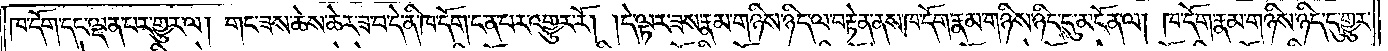ཁ་དོག་དང་ལྡན་པར་གྱུར་ལ། གང་ཟས་ཆེས་ཆེར་ཟ་བ་དེ་ནི་ཁ་དོག་ངན་པར་འགྱུར་རོ། །དེ་ལྟར་ཟས་རྣམ་གཉིས་ཉིད་ལ་བརྟེན་ནས་ཁ་དོག་རྣམ་གཉིས་ཉིད་དུ་མངོན་ལ། ཁ་དོག་རྣམ་གཉིས་ཉིད་དུ་གྱུར་
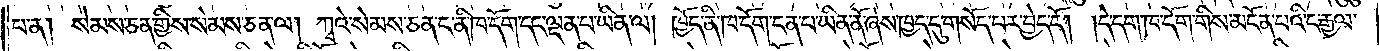པ་ན། སེམས་ཅན་གྱིས་སེམས་ཅན་ལ། ཀྭའེ་སེམས་ཅན་ང་ནི་ཁ་དོག་དང་ལྡན་པ་ཡིན་ལ། ཁྱོད་ནི་ཁ་དོག་ངན་པ་ཡིན་ནོ་ཞེས་ཁྱད་དུ་གསོད་པར་བྱེད་དོ། །དེ་དག་ཁ་དོག་གིས་མངོན་པའི་ང་རྒྱལ་
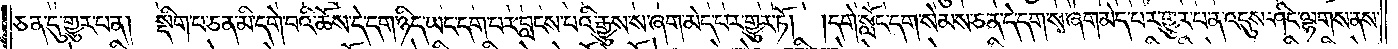ཅན་དུ་གྱུར་པ་ན། སྡིག་པ་ཅན་མི་དགེ་བའི་ཆོས་དེ་དག་ཉིད་ཡང་དག་པར་བླངས་པའི་རྒྱུས་ས་ཞག་མེད་པར་གྱུར་ཏོ། །དགེ་སློང་དག་སེམས་ཅན་དེ་དག་ས་ཞག་མེད་པར་གྱུར་པ་ན་འདུས་ཤིང་ལྷགས་ནས་
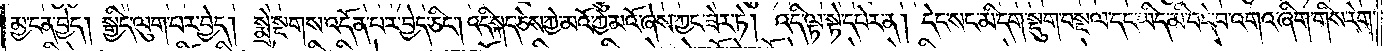མྱ་ངན་བྱེད། སྒྱིད་ལུག་པར་བྱེད། སྨྲེ་སྔགས་འདོན་པར་བྱེད་ཅིང༌། འདི་སྐད་ཅེས་ཀྱེ་མའོ་ཀྱེ་མའོ་ཞེས་ཀྱང་ཟེར་ཏེ། འདི་ལྟ་སྟེ་དཔེར་ན། དེང་སང་མི་དག་སྡུག་བསྔལ་དང་ཡིད་མི་བདེ་བ་འགའ་ཞིག་གིས་རེག་
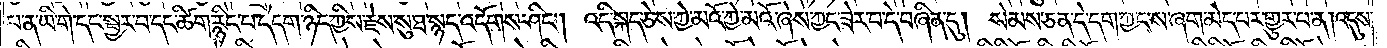པ་ན་ཡི་གེ་དང་སྦྱར་བ་དང་ཚིག་རྙིང་པ་དེ་དག་ཉིད་ཀྱིས་རྗེས་སུ་ཐ་སྙད་འདོགས་ཤིང༌། འདི་སྐད་ཅེས་ཀྱེ་མའོ་ཀྱེ་མའོ་ཞེས་ཀྱང་ཟེར་བ་དེ་བཞིན་དུ། སེམས་ཅན་དེ་དག་ཀྱང་ས་ཞག་མེད་པར་གྱུར་པ་ན། འདུས་
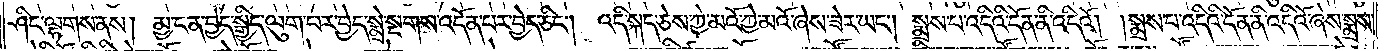ཤིང་ལྷགས་ནས། མྱ་ངན་བྱེད་སྒྱིད་ལུག་པར་བྱེད་སྨྲེ་སྔགས་འདོན་པར་བྱེད་ཅིང༌། འདི་སྐད་ཅེས་ཀྱེ་མའོ་ཀྱེ་མའོ་ཞེས་ཟེར་ཡང༌། སྨྲས་པ་འདིའི་དོན་ནི་འདིའོ། །སྨྲས་པ་འདིའི་དོན་ནི་འདིའོ་ཞེས་སྨྲས་
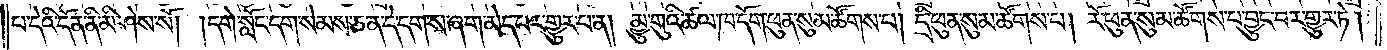པ་དེའི་དོན་ནི་མི་ཤེས་སོ། །དགེ་སློང་དག་སེམས་ཅན་དེ་དག་ས་ཞག་མེད་པར་གྱུར་པ་ན། མྱུ་གུའི་ཚལ་ཁ་དོག་ཕུན་སུམ་ཚོགས་པ། དྲི་ཕུན་སུམ་ཚོགས་པ། རོ་ཕུན་སུམ་ཚོགས་པ་བྱུང་བར་གྱུར་ཏེ།
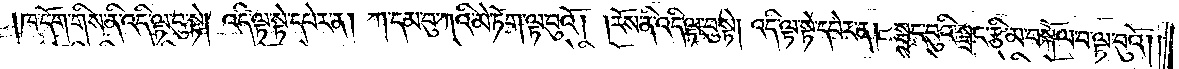།ཁ་དོག་གིས་ནི་འདི་ལྟ་བུ་སྟེ། འདི་ལྟ་སྟེ་དཔེར་ན། ཀ་དམ་བུ་ཀའི་མེ་ཏོག་ལྟ་བུའོ། །རོས་ནི་འདི་ལྟ་བུ་སྟེ། འདི་ལྟ་སྟེ་དཔེར་ན། སྦྲང་བུའི་སྦྲང་རྩི་མ་བསྐོལ་བ་ལྟ་བུའོ། །
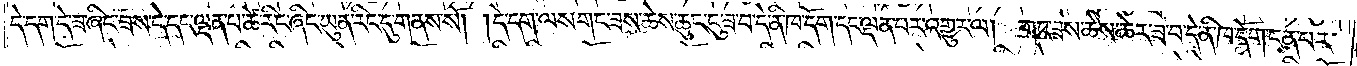དེ་དག་དེ་ཟ་ཞིང་ཟས་དེ་དང་ལྡན་པ་ཚེ་རིང་ཞིང་ཡུན་རིང་དུ་གནས་སོ། །དེ་དག་ལས་གང་ཟས་ཆེས་ཆུང་ངུ་ཟ་བ་དེ་ནི་ཁ་དོག་དང་ལྡན་པར་འགྱུར་ལ། གང་ཟས་ཆེས་ཆེར་ཟ་བ་དེ་ནི་ཁ་དོག་ངན་པར་
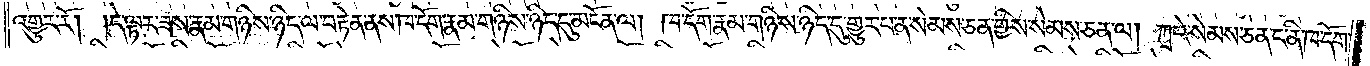འགྱུར་རོ། །དེ་ལྟར་ཟས་རྣམ་གཉིས་ཉིད་ལ་བརྟེན་ནས་ཁ་དོག་རྣམ་གཉིས་ཉིད་དུ་མངོན་ལ། ཁ་དོག་རྣམ་གཉིས་ཉིད་དུ་གྱུར་པ་ན་སེམས་ཅན་གྱིས་སེམས་ཅན་ལ། ཀྭའི་སེམས་ཅན་ང་ནི་ཁ་དོག་
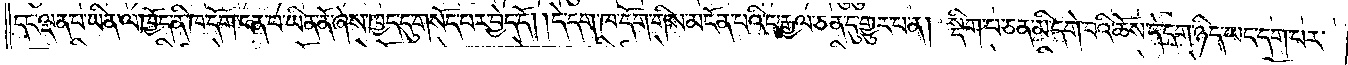དང་ལྡན་པ་ཡིན་ལ་ཁྱོད་ནི་ཁ་དོག་ངན་པ་ཡིན་ནོ་ཞེས་ཁྱད་དུ་གསོད་པར་བྱེད་དོ། །དེ་དག་ཁ་དོག་གིས་མངོན་པའི་ང་རྒྱལ་ཅན་དུ་གྱུར་པ་ན། སྡིག་པ་ཅན་མི་དགེ་བའི་ཆོས་དེ་དག་ཉིད་ཡང་དག་པར་
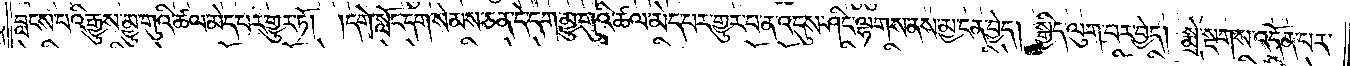བླངས་པའི་རྒྱུས་མྱུ་གུའི་ཚལ་མེད་པར་གྱུར་ཏོ། །དགེ་སློང་དག་སེམས་ཅན་དེ་དག་མྱུ་གུའི་ཚལ་མེད་པར་གྱུར་པ་ན་འདུས་ཤིང་ལྷགས་ནས་མྱ་ངན་བྱེད། སྒྱིད་ལུག་པར་བྱེད། སྨྲེ་སྔགས་འདོན་པར་
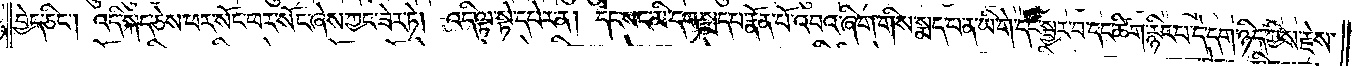བྱེད་ཅིང༌། འདི་སྐད་ཅེས་ཕར་སོང་ཕར་སོང་ཞེས་ཀྱང་ཟེར་ཏེ། འདི་ལྟ་སྟེ་དཔེར་ན། དེང་སང་མི་དག་སྨད་པ་རྣོན་པོ་འབའ་ཞིག་གིས་སྨད་པ་ན་ཡི་གེ་དང་སྦྱར་བ་དང་ཚིག་རྙིང་པ་དེ་དག་ཉིད་ཀྱིས་རྗེས་
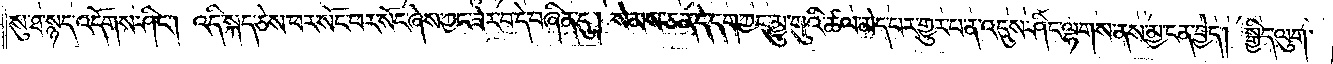སུ་ཐ་སྙད་འདོགས་ཤིང༌། འདི་སྐད་ཅེས་ཕར་སོང་ཕར་སོང་ཞེས་ཀྱང་ཟེར་བ་དེ་བཞིན་དུ། སེམས་ཅན་དེ་དག་ཀྱང་མྱུ་གུའི་ཚལ་མེད་པར་གྱུར་པ་ན་འདུས་ཤིང་ལྷགས་ནས་མྱ་ངན་བྱེད། སྒྱིད་ལུག་
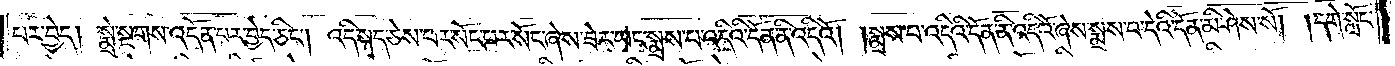པར་བྱེད། སྨྲེ་སྔགས་འདོན་པར་བྱེད་ཅིང༌། འདི་སྐད་ཅེས་ཕར་སོང་ཕར་སོང་ཞེས་ཟེར་ཡང་སྨྲས་པ་འདིའི་དོན་ནི་འདིའོ། །སྨྲས་པ་འདིའི་དོན་ནི་འདིའོ་ཞེས་སྨྲས་པ་དེའི་དོན་མི་ཤེས་སོ། །དགེ་སློང་
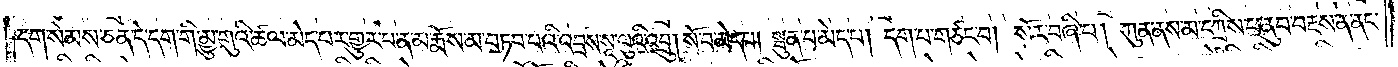དག་སེམས་ཅན་དེ་དག་གི་མྱུ་གུའི་ཚལ་མེད་པར་གྱུར་པ་ན་མ་རྨོས་མ་བཏབ་པའི་འབྲས་སཱ་ལུའི་འབྲུ། སོ་བ་མེད་པ། སྦུན་པ་མེད་པ། དག་པ་གཙང་བ། སོར་བཞི་པ། ཀུན་ནས་མ་དཀྲིས་པ་ནུབ་བརྔས་ན་ནང་
